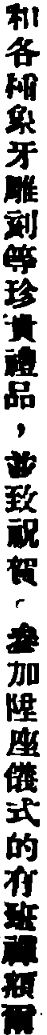和各種象牙雕刻等珍貴禮品，並致祝賀。參加陞座儀式的有班禪額爾
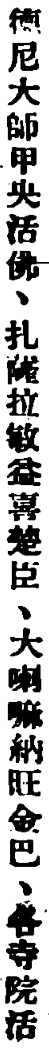德尼大師甲央活佛、扎薩拉敏益喜楚臣、大喇嘛納旺金巴、各寺院活
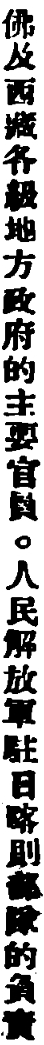佛及西藏各級地方政府的主要官員。人民解放軍貯日喀則部隊的負責
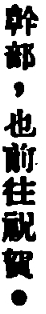幹部，也前往祝賀。
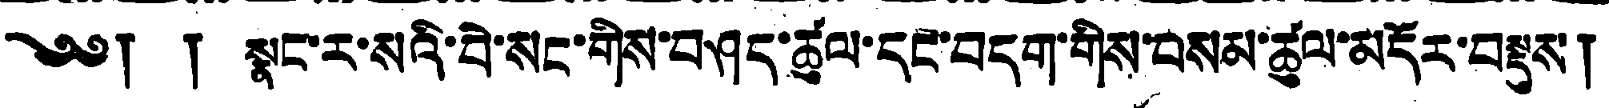༄༅། ། སྣང་ར་སའི་བེ་སང་གིས་བཤད་ཚུལ་དང་བདག་གིས་བསམ་ཚུལ་མདོར་བསྡུས།
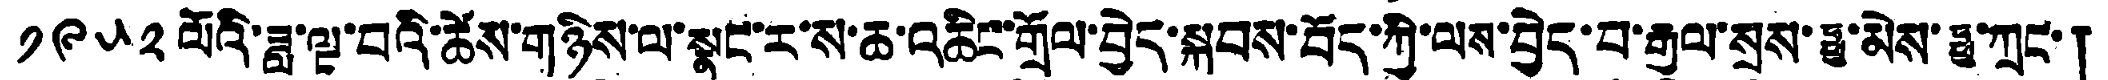༡༩༥༢ ལོའི་ཟླ་ལྔ་བའི་ཚེས་གཉིས་ལ་སྣང་ར་ས་ཆ་འཆིང་གྲོལ་བྱེད་སྐབས་བོད་ཀྱི་ལས་བྱེད་པ་རྒྱལ་སྲས་ཧྥུ་མེས་ཧྥུ་ཀྲང་།
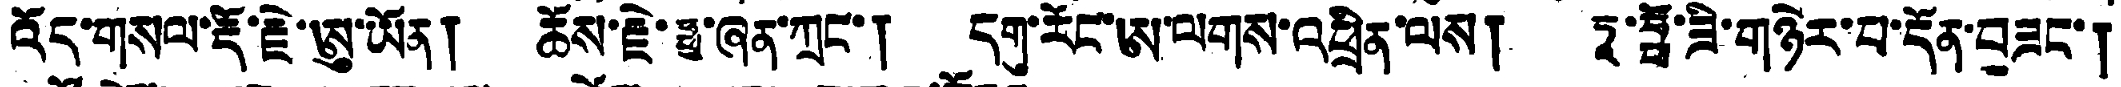འོད་གསལ་རྡོ་རྗེ་ཨུ་ཡོན། ཆོས་རྗེ་ཧྥུ་ཞན་ཀྲང་། དགུ་རོང་ཨ་ལགས་འཕྲིན་ལས། ཏཱ་ཧྥོ་ཟི་གཉེར་བ་དོན་བཟང་།
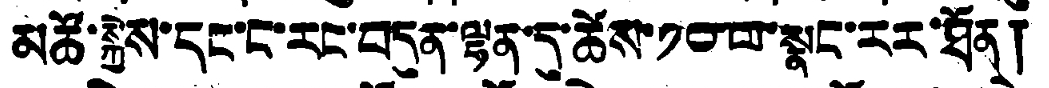མཚོ་སྐྱེས་དང་ང་རང་བདུན་ལྷན་དུ་ཚེས་༡༠་ལ་སྣང་རར་ཐོན།
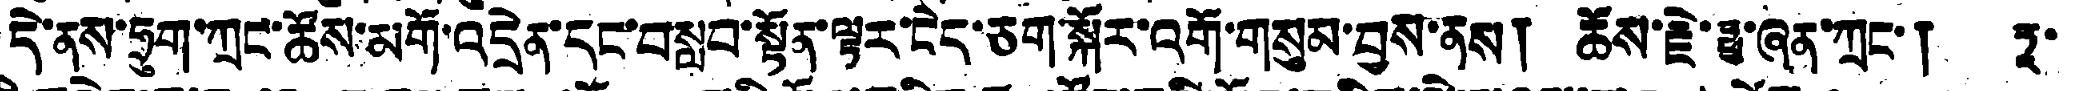དེ་ནས་ཧྲུག་ཀྲང་ཚོས་མགོ་འདྲེན་དང་བསླབ་སྟོན་ལྟར་ངེད་ཅག་སྐོར་འགོ་གསུམ་བྱས་ནས། ཆོས་རྗེ་ཧྥུ་ཞན་ཀྲང་། ཏཱ་
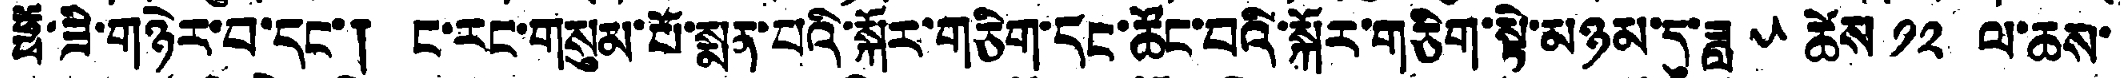ཧྥོ་ཟི་གཉེར་བ་དང་། ང་རང་གསུམ་པོ་སྨན་པའི་སྐོར་གཅིག་དང་ཚོང་བའི་སྐོར་གཅིག་སྟེ་མཉམ་དུ་ཟླ ༥ ཚེས ༡༢ ལ་ཆས་
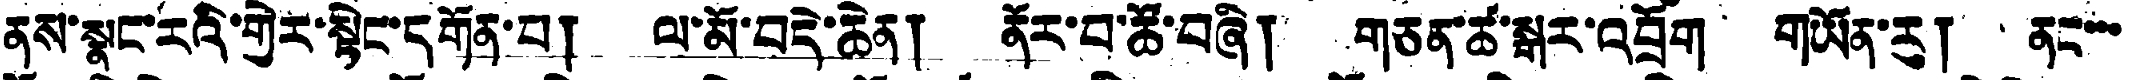ནས་སྣང་རའི་གྱེར་སྟེང་དགོན་པ། ལ་མོ་བདེ་ཆེན། ནོར་བ་ཚོ་བཞི། གཅན་ཚ་སྒར་འབྲོག གཡོན་རུ། ནང་་་
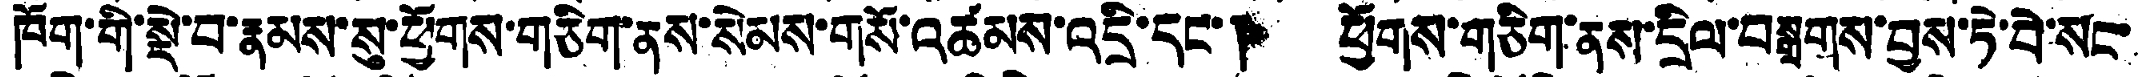ཁོག་གི་སྡེ་བ་རྣམས་སུ་ཕྱོགས་གཅིག་ནས་སེམས་གསོ་འཚམས་འདྲི་དང། ཕྱོགས་གཅིག་ནས་དྲིལ་བསྒྲགས་བྱས་ཏེ་བེ་སང་
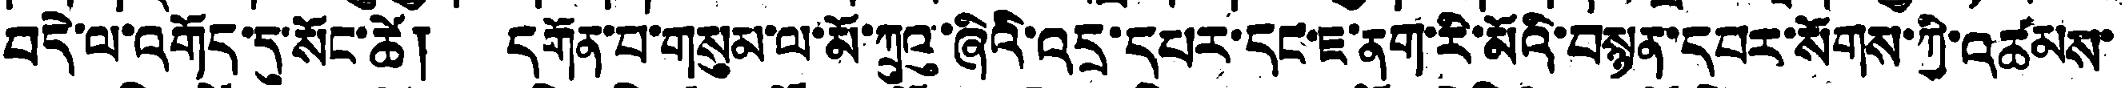བདེ་ལ་འགོད་དུ་སོང་ཚེ། དགོན་པ་གསུམ་ལ་མོ་ཀྲུའུ་ཞིའི་འདྲ་དཔར་དང་ཇ་ནག་རི་མོའི་བསྙན་དབར་སོགས་ཀྱི་འཚམས་
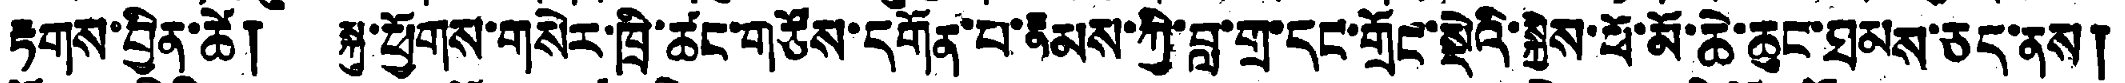རྟགས་བྱིན་ཚེ། སྐུ་ཕྱོགས་གསེར་ཁྲི་ཚང་གཙོས་དགོན་པ་རྣམས་ཀྱི་བླ་གྲ་དང་གྲོང་སྡེའི་སྐྱེས་ཕོ་མོ་ཆེ་ཆུང་ཐམས་ཅད་ནས།
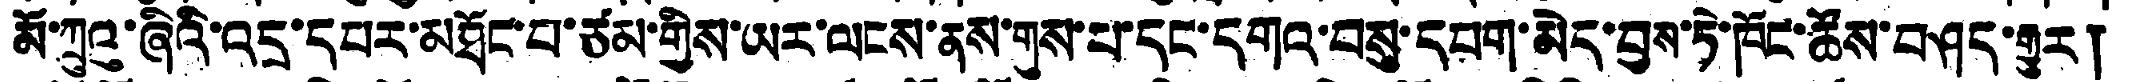མོ་ཀྲུའུ་ཞིའི་འདྲ་དཔར་མཐོང་པ་ཙམ་གྱིས་ཡར་ལངས་ནས་གུས་པ་དང་དགའ་བསུ་དབག་མེད་བྱས་ཏེ་ཁོང་ཚོས་བཤད་རྒྱུར།
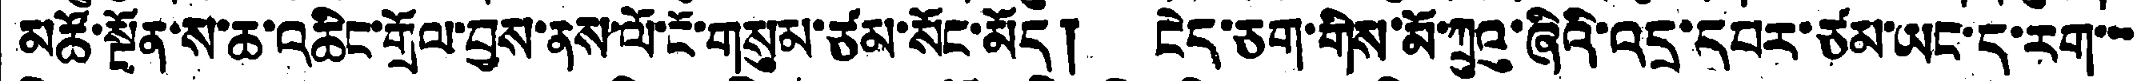མཚོ་སྔོན་ས་ཆ་འཆིང་གྲོལ་བྱས་ནས་ལོ་ངོ་གསུམ་ཙམ་སོང་མོད། ངེད་ཅག་གིས་མོ་ཀྲུའུ་ཞིའི་འདྲ་དཔར་ཙམ་ཡང་ད་རག་་་
